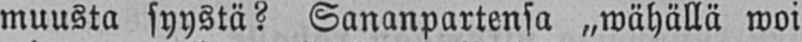muusta syystä? Sananpartensa „wähällä woi
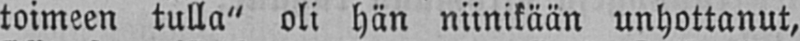toimeen tulla" oli hän niinikään unhottanut,
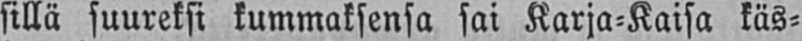sillä suureksi kummaksensa sai Karja-Kaisa käs-
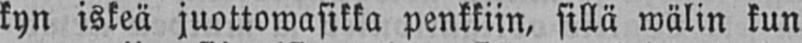kyn iskeä juottowasikka penkkiin, sillä wälin kun
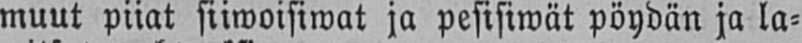muut piiat siiwoisiwat ja pesisiwät pöydän ja la-
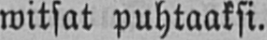witsat puhtaaksi.
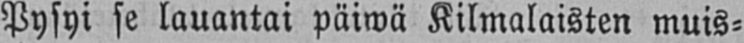Pysyi se lauantai päiwä Kilmalaisten muis-
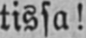tissa!
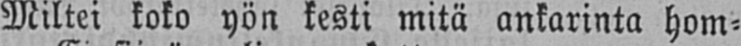Miltei koko yön kesti mitä ankarinta hom-
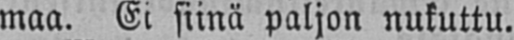maa. Ei siinä paljon nukuttu.
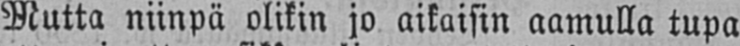Mutta niinpä olikin jo aikaisin aamulla tupa
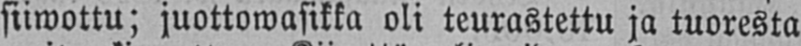siiwottu; juottowasikka oli teurastettu ja tuoresta
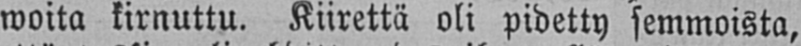woita kirnuttu. Kiirettä oli pidetty semmoista,
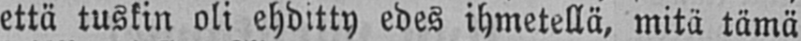että tuskin oli ehditty edes ihmetellä, mitä tämä
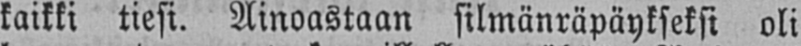kaikki tiesi. Ainoastaan silmänräpäykseksi oli
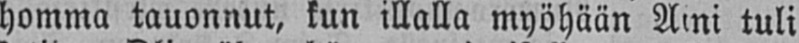homma tauonnut, kun illalla myöhään Aini tuli
